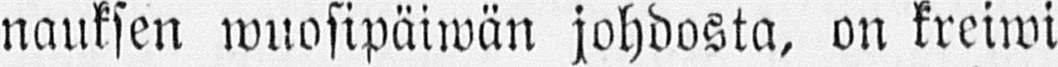nauksen wuosipäiwän johdosta, on kreiwi
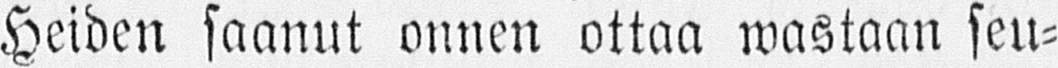Heiden saanut onnen ottaa wastaan seu-
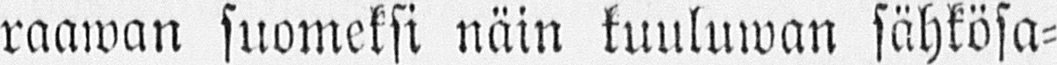raawan suomeksi näin kuuluwan sähkösa-
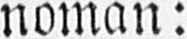noman:
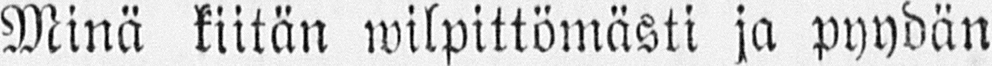Minä kiitän wilpittömästi ja pyydän
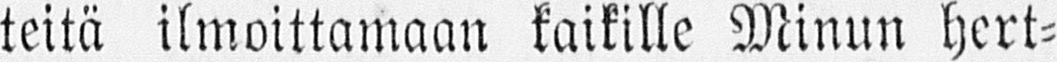teitä ilmoittamaan kaikille Minun hert-
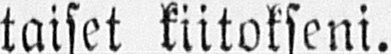taiset kiitokseni.
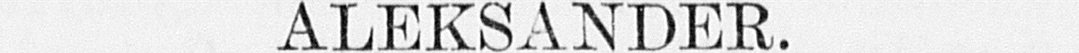ALEKSANDER.
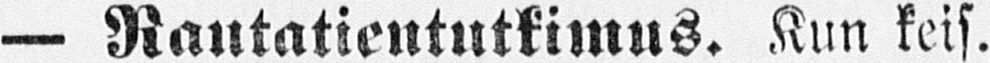— Rautatientutkimus. Kun keis.
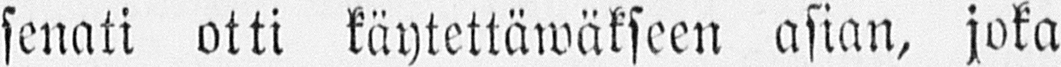senati otti käytettäwäkseen asian, joka
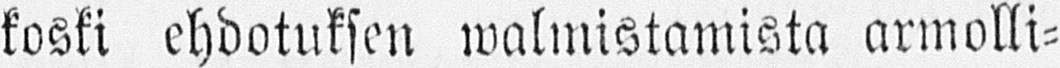koski ehdotuksen walmistamista armolli-
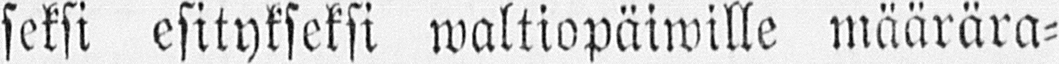seksi esitykseksi waltiopäiwille määrära-
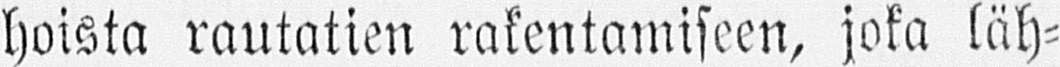hoista rautatien rakentamiseen, joka läh-
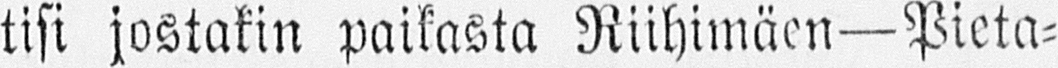tisi jostakin paikasta Riihimäen—Pieta-
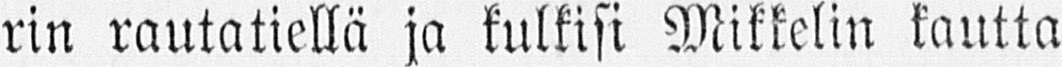rin rautatiellä ja kulkisi Mikkelin kautta
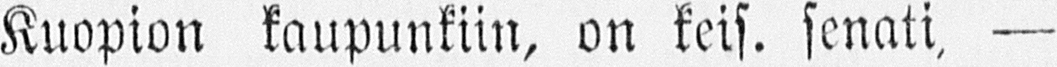Kuopion kaupunkiin, on keis. senati, —
